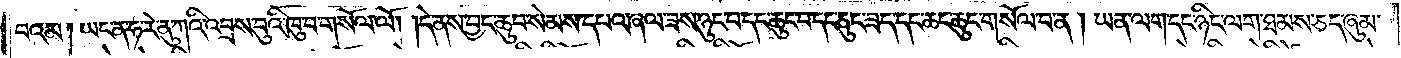བའམ། ཡང་ན་ཧ་རེ་ནུ་ཀའི་འབྲས་བུའི་ཁུ་བ་གསོལ་ལོ། །དེ་ནས་བྱང་ཆུབ་སེམས་དཔའ་ཞལ་ཟས་ཉུང་བ་དང་ཆུང་བ་དང་ཆུང་ཟད་དང་ཆང་ཆུང་གསོལ་བ་ན། ཡན་ལག་དང་ཉིང་ལག་ཐམས་ཅད་ཞུམ་
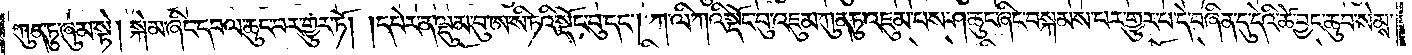ཀུན་ཏུ་ཞུམ་སྟེ། སྐེམ་ཞིང་དབལ་ཆུང་བར་གྱུར་ཏོ། །དཔེར་ན་ལྡུམ་བུ་ཨ་སི་ཏའི་སྡོང་བུ་དང༌། ཀ་ལི་ཀའི་སྡོང་བུ་འཇུམ་ཀུན་ཏུ་འཇུམ་པས་ཤ་ཆུང་ཞིང་བསྐམས་པར་གྱུར་པ་དེ་བཞིན་དུ་དེའི་ཚེ་བྱང་ཆུབ་སེམས་
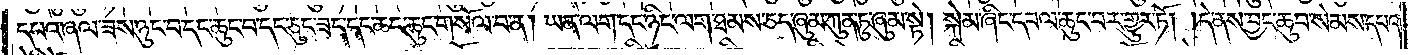དཔའ་ཞལ་ཟས་ཉུང་བ་དང་ཆུང་བ་དང་ཆུང་ཟད་དང་ཆང་ཆུང་གསོལ་བ་ན། ཡན་ལག་དང་ཉིང་ལག་ཐམས་ཅད་ཞུམ་ཀུན་ཏུ་ཞུམ་སྟེ། སྐེམ་ཞིང་དཔལ་ཆུང་བར་གྱུར་ཏོ། །དེ་ནས་བྱང་ཆུབ་སེམས་དཔའ་
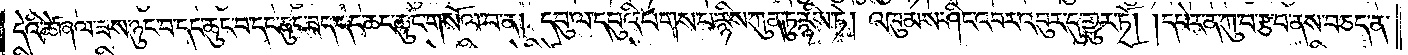དེའི་ཚེ་ཞལ་ཟས་ཉུང་བ་དང་ཆུང་བ་དང་ཅུང་ཟད་དང་ཆང་ཆུང་གསོལ་བ་ན། དབུ་ལ་དབུའི་པགས་པ་རྙིས་ཀུན་ཏུ་རྙིས་ཏེ། འཁུམས་ཤིང་འབར་འབུར་དུ་གྱུར་ཏོ། །དཔེར་ན་ཀུ་བ་རྩ་བ་ནས་བཅད་ན་
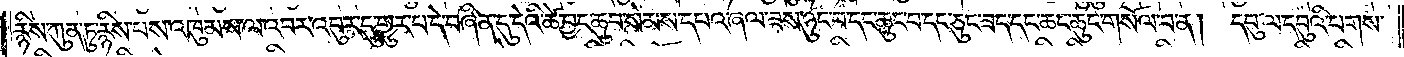རྙིས་ཀུན་ཏུ་རྙིས་པས་འཁུམས་ལ་འབར་འབུར་དུ་གྱུར་པ་དེ་བཞིན་དུ་དེའི་ཚེ་བྱང་ཆུབ་སེམས་དཔའ་ཞལ་ཟས་ཉུང་བ་དང་ཆུང་བ་དང་ཅུང་ཟད་དང་ཆང་ཆུང་གསོལ་བ་ན། དབུ་ལ་དབུའི་པགས་
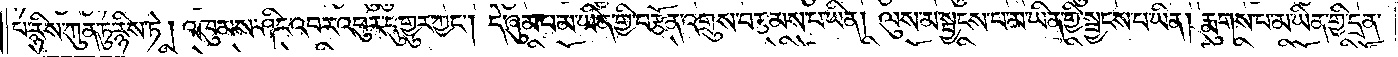པ་རྙིས་ཀུན་ཏུ་རྙིས་ཏེ། འཁུམས་ཤིང་འབར་འབུར་དུ་གྱུར་ཀྱང༌། དེ་ཞུམ་པ་ལ་མ་ཡིན་གྱི་བརྩོན་འགྲུས་བརྩམས་པ་ཡིན། ལུས་མ་སྦྱངས་པ་མ་ཡིན་གྱི་སྦྱངས་པ་ཡིན། རྨུགས་པ་མ་ཡིན་གྱི་དྲན་
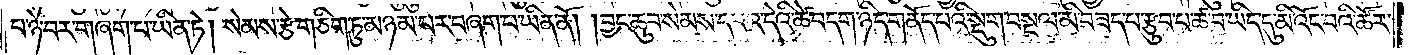པ་ཉེ་བར་གཞག་པ་ཡིན་ཏེ། སེམས་རྩེ་གཅིག་ཏུ་མཉམ་པར་བཞག་པ་ཡིན་ནོ། །བྱང་ཆུབ་སེམས་དཔའ་དེའི་ཆེ་བདག་ཉིད་གནོད་པའི་སྡུག་བསྔལ་མི་བཟད་པ་རྩུབ་པ་ཚ་བ་ཡིད་དུ་མི་འོང་བའི་ཚོར་
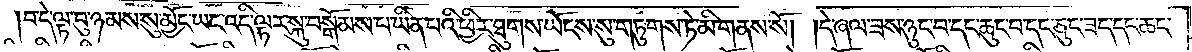།བ་དེ་ལྟ་བུ་ཉམས་སུ་མྱོང་ཡང་འདི་ལྟར་སྐུ་བསྒོམས་པ་ཡིན་པའི་ཕྱིར་ཐུགས་ཡོངས་སུ་གཏུགས་ཏེ་མི་གནས་སོ། །དེ་ཞལ་ཟས་ཉུང་བ་དང་ཆུང་བ་དང་ཅུང་ཟད་དང་ཆང་
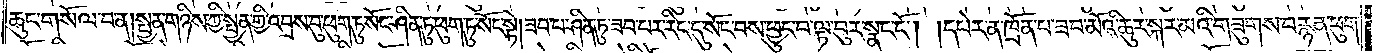ཆུང་གསོལ་བ་ན། སྤྱན་གཉིས་ཀྱི་སྤྱན་གྱི་འབྲས་བུ་ཕུག་ཏུ་སོང་ཤིན་ཏུ་ཕུག་ཏུ་སོང་སྟེ། ཟབ་པ་ཤིན་ཏུ་ཟབ་པར་རིང་དུ་སོང་བས་ཕྱུང་བ་ལྟ་བུར་སྣང་ངོ༌། །དཔེར་ན་ཁྲོན་པ་ཟབ་མོའི་ཆུར་སྐར་མའི་གཟུགས་བརྙན་ཕུག་
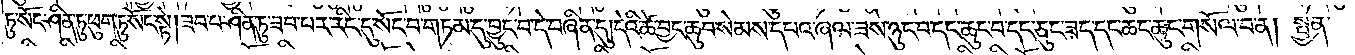ཏུ་སོང་ཤིན་ཏུ་ཕུག་སོང་སྟེ། ཟབ་པ་ཤིན་ཏུ་ཟབ་པར་རིང་དུ་སོང་བ་གཏམ་དུ་བྱུང་བ་དེ་བཞིན་དུ། དེའི་ཚེ་བྱང་ཆུབ་སེམས་དཔའ་ཞལ་ཟས་ཉུང་བ་དང་ཆུང་བ་དང་ཅུང་ཟད་དང་ཆང་ཆུང་གསོལ་བ་ན། སྤྱན་
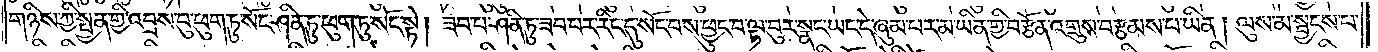གཉིས་ཀྱི་སྤྱན་གྱི་འབྲས་བུ་ཕུག་ཏུ་སོང་ཤིན་ཏུ་ཕུག་ཏུ་སོང་སྟེ། ཟབ་པ་ཤིན་ཏུ་ཟབ་པར་རིང་དུ་སོང་བས་ཕྱུང་བ་ལྟ་བུར་སྣང་ཡང་དེ་ཞུམ་པར་མ་ཡིན་གྱི་བརྩོན་འགྲུས་བརྩམས་པ་ཡིན། ལུས་མ་སྦྱངས་པ་
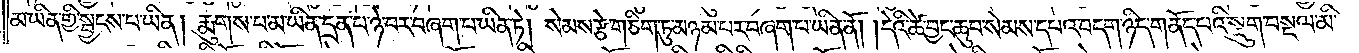མ་ཡིན་གྱི་སྦྱངས་པ་ཡིན། རྨུགས་པ་མ་ཡིན་དྲན་པ་ཉེ་བར་བཞག་པ་ཡིན་ཏེ། སེམས་རྩེ་གཅིག་ཏུ་མཉམ་པར་བཞག་པ་ཡིན་ནོ། །དེའི་ཚེ་བྱང་ཆུབ་སེམས་དཔའ་བདག་ཉིད་གནོད་པའི་སྡུག་བསྔལ་མི་
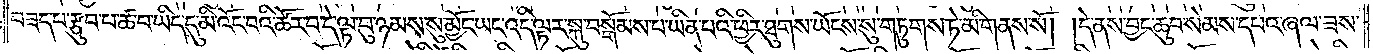བཟད་པ་རྩུབ་པ་ཚ་བ་ཡིད་དུ་མི་འོང་བའི་ཚོར་བ་དེ་ལྟ་བུ་ཉམས་སུ་མྱོང་ཡང་འདི་ལྟར་སྐུ་བསྒོམས་པ་ཡིན་པའི་ཕྱིར་ཐུགས་ཡོངས་སུ་གཏུགས་ཏེ་མི་གནས་སོ། །དེ་ནས་བྱང་ཆུབ་སེམས་དཔའ་ཞལ་ཟས་
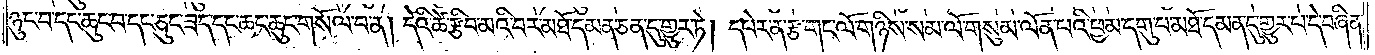ཉུང་བ་དང་ཆུང་བ་དང་ཅུང་ཟད་དང་ཆང་ཆུང་གསོལ་བ་ན། དེའི་ཚེ་རྩིབ་མའི་བར་མཐོ་དམན་ཅན་དུ་གྱུར་ཏེ། དཔེར་ན་རྩ་གང་ལོ་གཉིས་སམ་ལོ་གསུམ་ལོན་པའི་ཕྱམ་དགུ་པ་མཐོ་དམན་དུ་གྱུར་པ་དེ་བཞིན་
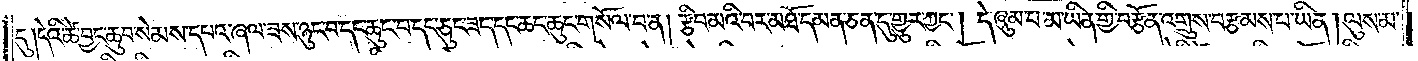དུ། དེའི་ཚེ་བྱང་ཆུབ་སེམས་དཔའ་ཞལ་ཟས་ཉུང་བ་དང་ཆུང་བ་དང་ཅུང་ཟད་དང་ཆང་ཆུང་གསོལ་བ་ན། རྩིབ་མའི་བར་མཐོ་དམན་ཅན་དུ་གྱུར་ཀྱང༌། དེ་ཞུམ་བ་མ་ཡིན་གྱི་བརྩོན་འགྲུས་བརྩམས་པ་ཡིན། ལུས་མ་
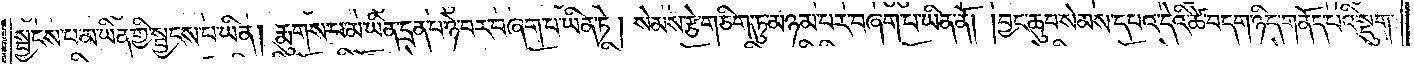སྦྱངས་པ་མ་ཡིན་གྱི་སྦྱངས་པ་ཡིན། རྨུགས་པ་མ་ཡིན་དྲན་པ་ཉེ་བར་བཞག་པ་ཡིན་ཏེ། སེམས་རྩེ་གཅིག་ཏུ་མཉམ་པར་བཞག་པ་ཡིན་ནོ། །བྱང་ཆུབ་སེམས་དཔའ་དེའི་ཚེ་བདག་ཉིད་གནོད་པའི་སྡུག་
